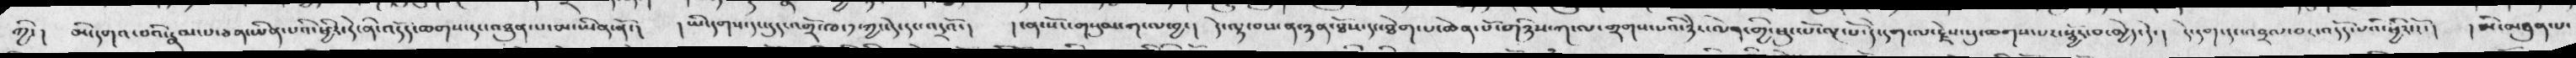ཀྱི་།   མི་དགའ་བའི་རྣམ་པ་ཅན་ཡིན་པའི་ཕྱིར་དེ་ནི་འདོད་ཆགས་དང་མཐུན་པ་མ་ཡིན་ནོ་།   ། ཡི་དགས་དང་དུད་འགྲོ་ཁ་༡་ཀྱང་དེ་དང་འདྲའོ་།   །ངན་སོང་གསུམ་ག་ལ་བྱ་།   དེ་ལྟ་བས་ན་ཉན་ཐོས་དང་ཐེག་པ་ཆེན་པོ་གཉིས་ཀ་ལ་གྲགས་པའི་ཉེར་ལེན་གྱི་ཕུང་པོ་ལྔ་པོ་དེ་དག་ན་རྗེས་སུ་ཆགས་པར་སྦྱོར་བ་མྱེད་དེ་།   དེ་དག་དང་འབྲལ་བར་འདོད་པའི་ཕྱིར་རོ་།  ། མི་མཐུན་པ
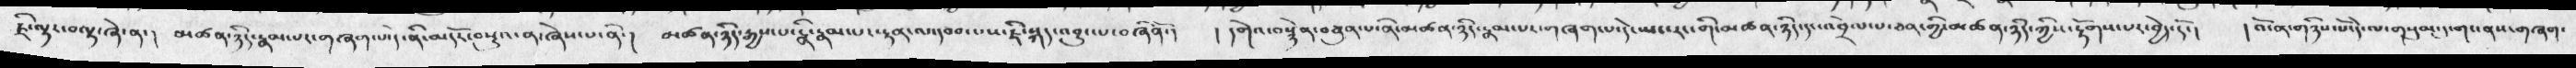ཇི་ལྟར་བལྟ་ཞེ་ན་།  མཚན་ཉིད་རྣམ་པར་གཞག་པ་དེ་ནི་མདོར་བསྡུའ་ན་ཞེས་པ་ནི་།  མཚན་ཉིད་རྒྱས་པ་ནི་རྣམ་པར་རྟན་ལ་དབབ་པས་ཇི་སྐད་འབྱུང་པ་བཞིནོ་།   ། དགེའ་བསྙེན་བཙུན་པ་ནི་མཚན་ཉིད་རྣམ་པར་གཞག་པ་དེ་ཡང་རང་གི་མཚན་ཉིད་དང་འབྲེལ་བ་ཅན་གྱི་མཚན་ཉིད་ཀྱིས་རྟོགས་པར་བྱེད་དོ་།   ། འོ་ན་གཉིས་པོ་དེ་ལ་གསུམ་དུ་གང་ནས་གཞག་
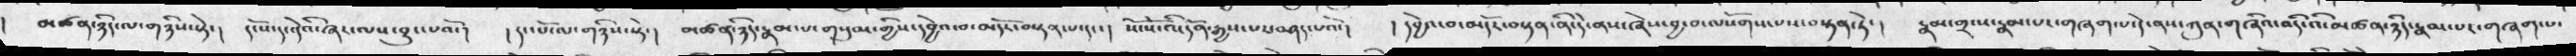།  མཚན་ཉིད་ལ་གཉིས་སྟེ་།   དངོས་དང་དེའི་ཞར་ལས་བྱུང་པའོ་།  ། དང་པོ་ལ་གཉིས་སྟེ་།   མཚན་ཉིད་རྣམ་པ་གསུམ་གྱིས་དབྱེའ་བ་མདོར་བསྟན་པ་དང་།   སོ་སོ་འི་དོན་རྒྱས་པར་བཤད་པའོ་།  ། དབྱེའ་བ་མདོར་བསྟན་ནི་དེ་ནས་ཞེས་བྱ་བ་ལསོགས་པས་བསྟན་ཏེ་།   རྣམ་གྲངས་རྣམ་པར་གཞག་པ་དེ་ནས་ཀུན་གཞིའ་འདི་འི་མཚན་ཉིད་རྣམ་པར་གཞག་པ་
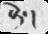སྟེ་།
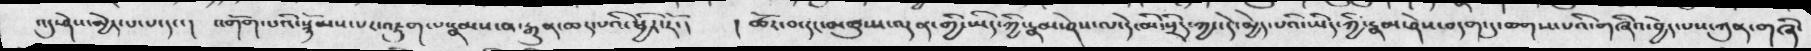འདུ་ཤེས་མྱེད་པ་པ་དང་།  འགོག་པའི་སྙོམས་པར་འཇུག་པ་རྣམས་ན་ཆད་པའི་ཕྱིར་རོ་།  ། ཚོར་བ་དང་མཚུངས་ལྡན་གྱི་ཡིད་ཀྱི་རྣམ་ཤེས་ལ་དེ་མི་སྲིད་ཀྱང་དེ་མྱེད་པའི་ཡིད་ཀྱི་རྣམ་ཤེས་བདག་དུ་ཆགས་པའི་གཞིའ་བྱེད་པས་ཀུན་གཞི་
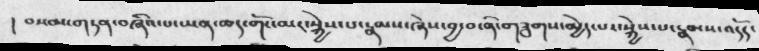།  བསམ་གཏན་བཞིའ་པ་ཡན་ཆད་གོང་མར་སྐྱེས་པ་རྣམས་ཞེས་བྱ་བ་ནི་གཟུགས་མྱེད་པར་སྐྱེས་པ་རྣམས་འདོད་
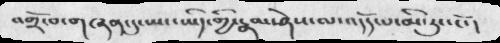འགྲོ་བ་གཞན་དུ་ཡང་ཡིད་གྱི་རྣམ་ཤེས་ལ་འདོད་པ་མི་རུང་ངོ་།
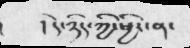།            །  དེ་ཉིད་ཀྱི་ཕྱིར་ན་
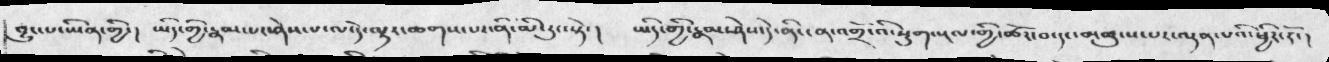བྱུང་པ་ཡིན་གྱི་།   ཡིད་གྱི་རྣམ་པར་ཤེས་པ་ལ་དེ་ལྟར་ཆགས་པར་ནི་མི་རུང་སྟེ་།   ཡིད་གྱི་རྣམ་ཤེས་དེ་ནི་ངན་འགྲོ་འི་སྡུག་སྔལ་གྱི་ཚོར་བ་དང་མཚུངས་པར་ལྡན་པའི་ཕྱིར་རོ་།
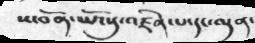ས་བོན་ཡོངསུ་འཛིན་པ་དང་ལྡན་
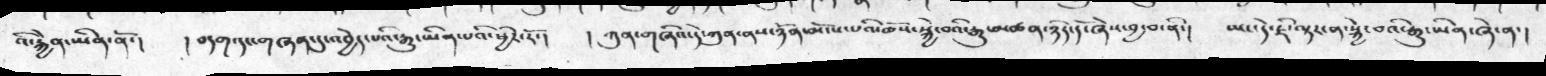འི་རྐྱེན་ཡིན་ནོ་།   ། བདག་དང་གཞན་དུ་འབྱེད་པའི་རྒྱུ་ཡིན་པའི་ཕྱིར་རོ་།  ། ཀུན་གཞིའ་དེ་ཀུན་ནས་ཉོན་མོངས་པའི་ཆོས་སྐྱེ་བའི་རྒྱུ་མཚན་ཉིད་དོ་ཞེས་བྱ་བ་ནི་།  ཡང་དེ་ཇི་ལྟར་ན་སྐྱེ་བའི་རྒྱུ་ཡིན་ཞེ་ན་།
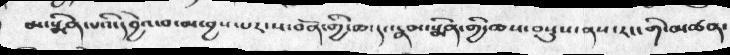མ་སྨིན་པའི་དབྱེའ་བ་མ་བྱས་པར་ས་བོན་གྱི་ཆ་དང་རྣམ་སྨིན་གྱི་ཆས་བསྡུས་ནས་རང་གི་མཚན་
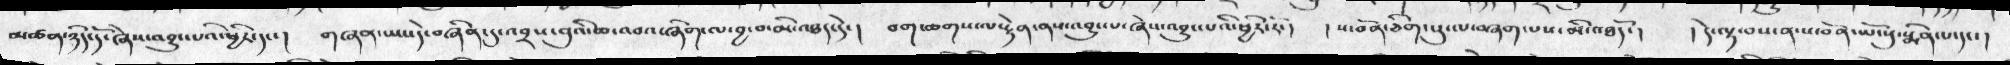མཚན་ཉིད་དོ་ཞེས་འབྱུང་པའི་ཕྱིར་དང་།   གཞན་ཡང་དེ་བཞིན་དུ་འབྲས་བུའི་ཆ་འབའ་ཞིག་ལ་བྱ་བ་མི་འཐད་དེ་།  བག་ཆགས་ལ་རྟེན་ནས་འབྱུང་པ་ཞེས་འབྱུང་པའི་ཕྱིར་རོ་།   ། ས་བོན་ཅིག་པུ་ལ་བཞག་པས་མི་འཐདོ་།   ། དེ་ལྟ་བས་ན་ས་བོན་ཡོངས་སུ་སྨིན་པ་དང་ །
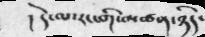། དེ་ལ་རང་གི་མཚན་ཉིད་
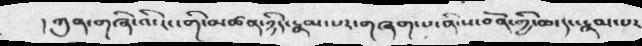། ཀུན་གཞི་འི་རང་གི་མཚན་ཉིད་རྣམ་པར་གཞག་པ་ནི་ས་བོན་གྱི་ཆ་དང་རྣམ་པར
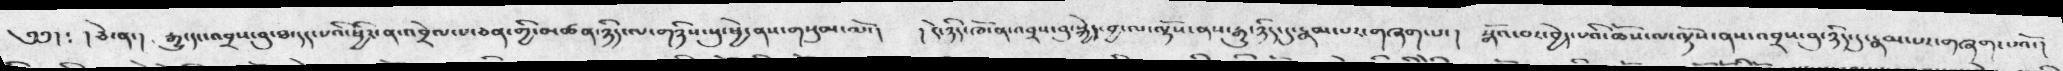༄༅། ༴ ། ཅེ་ན་།   རྒྱུ་དང་འབྲས་བུ་ཐ་དད་པའི་ཕྱིར་ན་འབྲེལ་པ་ཅན་གྱི་མཚན་ཉིད་ལ་གཉིས་སུ་ཕྱེ་ནས་གསུམ་མོ་།   ། དེ་ཉིད་ཁོ་ན་འབྲས་བུ་སྐྱེད་བྱ་ལ་ལྟོས་ནས་རྒྱུ་ཉིད་དུ་རྣམ་པར་གཞག་པ་།  སྒོའ་བར་བྱེད་པའི་ཆོས་ལ་ལྟོས་ནས་འབྲས་བུ་ཉིད་དུ་རྣམ་པར་གཞག་པའོ་།
